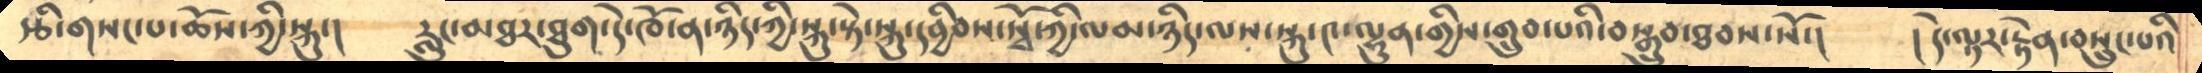རྩི་གསང་པ་ཆོས་ཀྱི་སྐུ་།       རླུང་མཐར་ཐུག་དེ་ཁོ་ན་ཉིད་ཀྱི་སྐུ་སྟེ་སྐུ་དབྱིབས་སྭོ་ཀྱི་ལམ་ཉིད་ལས་སྐུ་༤་ལྷུན་གྱིས་གྲུབ་པའི་བསྒྲུབ་ཐབས་སོ་།       །དེ་ལྟར་རྟེན་བསྲུང་པའི
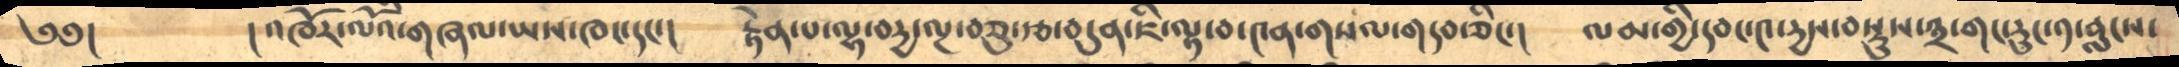༄༅།          །འཁོར་ལོའི་གཞལ་ཡས་ཁང་དང་།      རྟེན་པ་ལྷ་བདྱ་ལྔ་བཅུ་རྩ་བདུན་ཇི་ལྟ་བ་༤ན་གསལ་གདབ་ཅིང་།      ལམ་གྱི་དབང་༤་དྱས་བསྡུས་༣་གང་རུང་༡་བླངས་
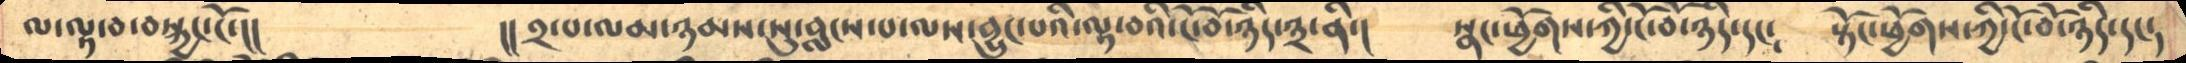ླ་ལྟ་བ་བསྐྱང་ངོ་།།      །།༢་པ་ལམ་ཉམས་སུ་བླངས་པ་ལས་བྱུང་པའི་ལྟ་བའི་ངོ་བོ་ཉིད་༣་ནི་།     སྣང་ཕྱོགས་ཀྱི་ངོ་བོ་ཉིད་དང༴     སྟོང་ཕྱོགས་ཀྱི་ངོ་བོ་ཉིད་དང༴
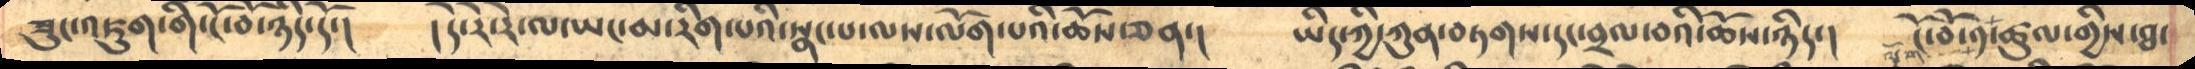ཟུང་འཇུག་གི་ངོ་བོ་ཉིད་དོ་།       །།དེ་རེ་རེ་ལ་ཡང་མ་རིག་པའི་སྣང་པ་ལས་ལོག་པའི་ཆོས་ཅན་།    ཡིད་ཀྱི་ཀུན་བཏགས་དང་བྲལ་བའི་ཆོས་ཉིད་།    ངོ་བོ་༡་ཚུལ་གྱིས་ཐ་
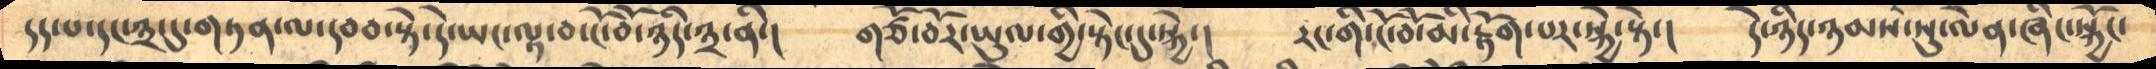དད་པ་དང་༣་དུ་གཏན་ལ་དབབ་སྟེ་དེ་ཡང་ལྟ་བ་ངོ་བོ་ཉིད་༣་ནི་།      གཙོ་བོར་ཡུལ་གྱི་སྟེང་དུ་སྐྱེ་།    རང་གི་ངོ་བོ་མི་རྟོག་པར་སྐྱེ་སྟེ་།   དེ་ཉིད་ཉམས་སུ་ལེན་ཞིང་སྐྱོང་
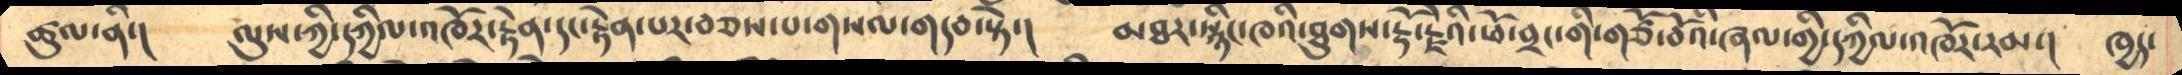ཚུལ་ནི་།      ལུས་ཀྱི་དཀྱིལ་འཁོར་རྟེན་དང་རྟེན་པར་བཅས་པ་གསལ་གདབ་སྟེ་།      མཐར་སྙིང་ཁའི་ཐུགས་རྡོ་རྗེའི་ཕོ་བྲང་གི་གཙོ་བོའི་ཞལ་གྱི་དཀྱིལ་འཁོར་རམ་།     ཁྱད་
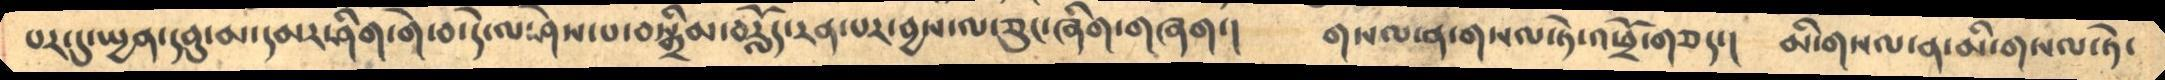པར་དུ་སྤྱན་དབུ་མ་དམར་ཤིག་གེ་བ་དེ་ལ་ཤེས་པ་བསྒྲིམ་བརློད་རན་པར་བྱས་ལ་ཅུང་ཞིག་གཞག་།     གསལ་ན་གསལ་ཏེ་འཕྲོ་གཅད་།    མི་གསལ་ན་མི་གསལ་ཏེ་
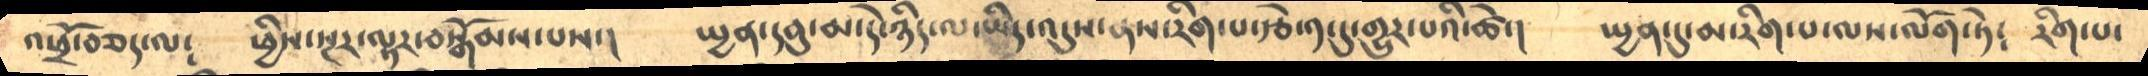འཕྲོ་བཅད་ལ༴          ཕྱིས་སྔར་ལྟར་བསྒོམས་པས་།     སྤྱན་དབུ་མ་དེ་ཉིད་ལ་ཡིད་འདུས་ནས་རིག་པ་རྩེ་༡་དུ་གྱུར་པའི་ཚེ་།    སྤྱན་དུ་མ་རིག་པ་ལས་ལོག་ཏེ༴   རིག་པ་
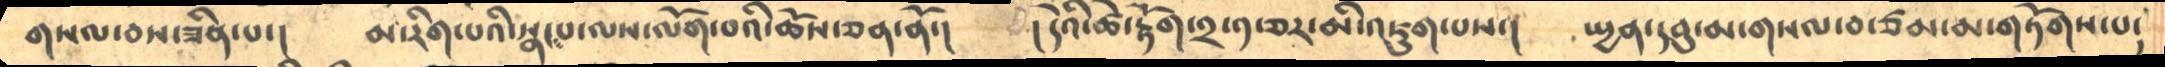གསལ་བས་ཟིན་པ་།      མ་རིག་པའི་སྣང་པ་ལས་ལོག་པའི་ཆོས་ཅན་ནོ་།       །དེའི་ཚེ་རྟོག་༢་༡་ཅར་མི་འཇུག་པས་།    སྤྱན་དབུ་མ་གསལ་བ་ཙམ་མ་གཏོགས་པ་
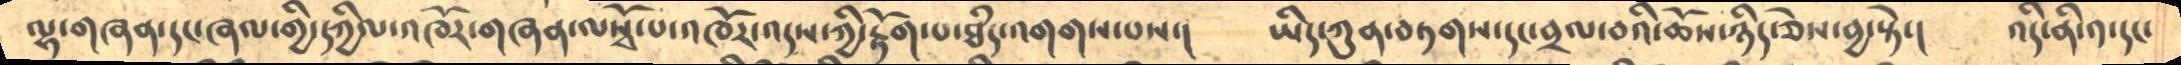ལྷ་གཞན་དང་ཞལ་གྱི་དཀྱིལ་འཁོར་གཞན་ལསྭོ་པ་འཁོར་འདས་ཀྱི་རྟོག་པ་ཐཾད་འགགས་པས་།     ཡིད་ཀུན་བཏགས་དང་བྲལ་བའི་ཆོས་ཉིད་ཅེས་བྱ་སྟེ་།    འདི་ནི་༡་དང་
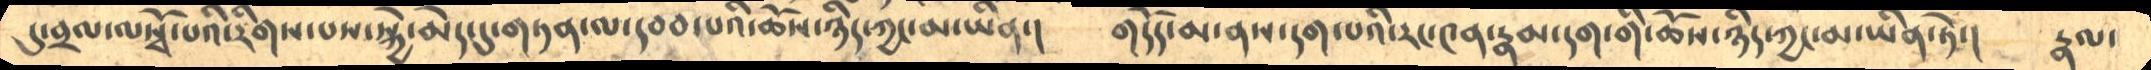དུ་བྲལ་ལསྭོ་པའི་རིགས་པས་སྐྱེ་མེད་དུ་གཏན་ལ་དབབ་པའི་ཆོས་ཉིད་ཀྱང་མ་ཡིན་།    གདོད་མ་ནས་དག་པའི་རང་༤ན་རྣམ་དག་གི་ཆོས་ཉིད་ཀྱང་མ་ཡིན་ཏེ་།   རྣལ་
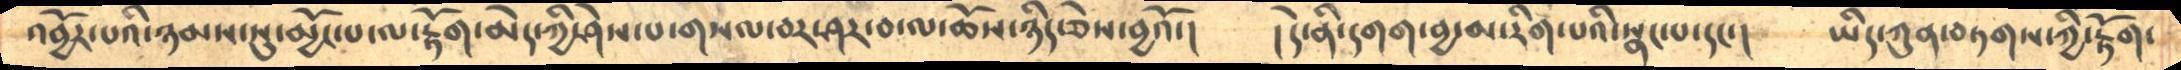འབྱོར་པའི་ཉམས་སུ་མྱོང་པ་ལ་རྟོག་མེད་ཀྱི་ཤེས་པ་གསལ་བར་ཤར་བ་ལ་ཆོས་ཉིད་ཅེས་བྱའོ་།     །དེ་ནི་དགག་བྱ་མ་རིག་པའི་སྣང་པ་དང་།     ཡིད་ཀུན་བཏགས་ཀྱི་རྟོག་
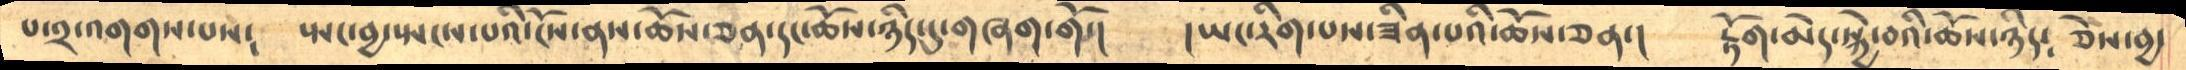པ་༢་འགགས་པས༴     སྤང་བྱ་སྤངས་པའི་ངོས་ནས་ཆོས་ཅན་དང་ཆོས་ཉིད་དུ་གཞག་གོ་།     །ཡང་རིག་པས་ཟིན་པའི་ཆོས་ཅན་།    རྟོག་མེད་སྐྱེ་བའི་ཆོས་ཉིད༴    ཅེས་བྱ་
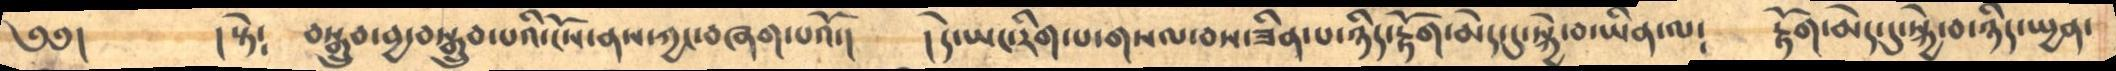༄༅།      །སྟེ༴      བསྒྲུབ་བྱ་བསྒྲུབ་པའི་ངོས་ནས་ཀྱང་བཞག་པའོ་།      །དེ་ཡང་རིག་པ་གསལ་བས་ཟིན་པ་ཉིད་རྟོག་མེད་དུ་སྐྱེ་བ་ཡིན་ལ༴    རྟོག་མེད་དུ་སྐྱེ་བ་ཉིད་སྤྱན་
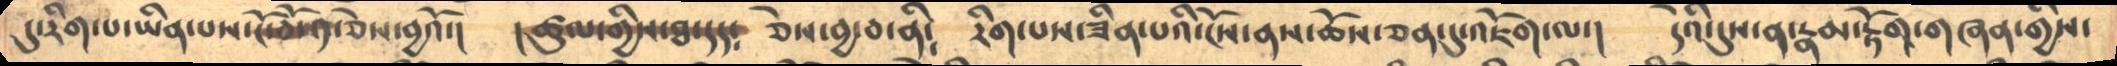དུ་རིག་པ་ཡིན་པས་ངོ་བོ་༡་ཅེས་བྱའོ་།     །ཚུལ་གྱིས་ཐ་དད༴ ཅེས་བྱ་བ་ནི༴     རིག་པས་ཟིན་པའི་ངོས་ནས་ཆོས་ཅན་དུ་འཇོག་ལ་།      དེའི་དུས་ན་རྣམ་རྟོག་གཞན་གྱིས་
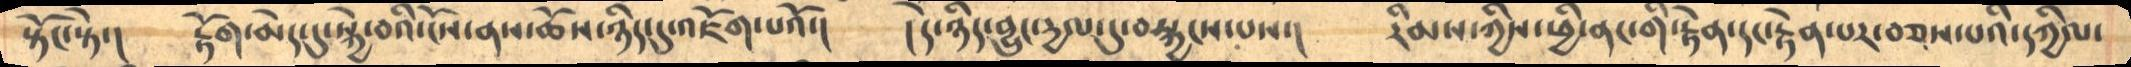སྟོང་སྟེ་།      རྟོག་མེད་དུ་སྐྱེ་བའི་ངོས་ནས་ཆོས་ཉིད་དུ་འཇོག་པའོ་།     །དེ་ཉིད་བྱུང་དྱལ་དུ་བསྐྱངས་པས་།     རིམས་ཀྱིས་ཕྱི་ནང་གི་རྟེན་དང་རྟེན་པར་བཅས་པའི་དཀྱིལ་
